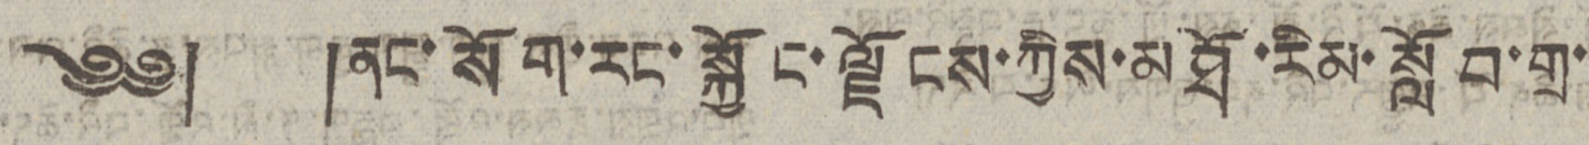༄༅། །ནང་སོག་རང་སྐྱོང་ལྗོངས་ཀྱིས་མཐོ་རིམ་སློབ་གྲ་
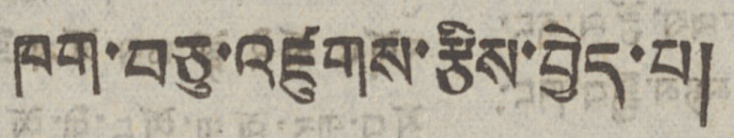ཁག་བཅུ་འཛུགས་རྩིས་བྱེད་པ།
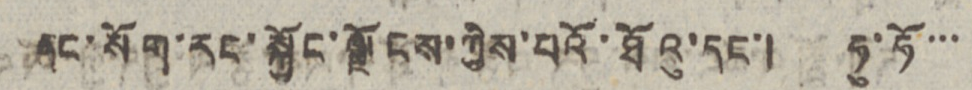ནང་སོག་རང་སྐྱོང་ཀྱིས་པའོ་ཐོའུ་དང་། ཧུ་ཧོ་་་
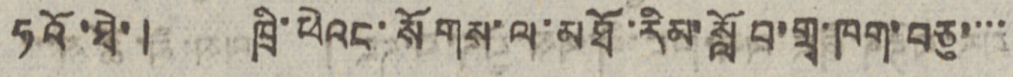ཧའོ་ཐེ་། ཁྲི་ཕེའང་སོགས་ལ་མཐོ་རིམ་སློབ་གྲྭ་ཁག་བཅུ་་་་
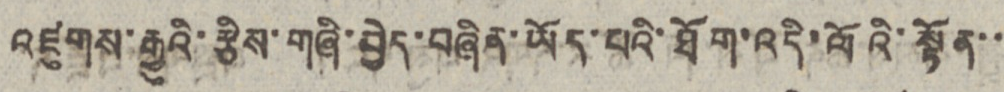འཛུགས་རྒྱུའི་རྩིས་གཞི་བྱེད་བཞིན་ཡོད་པའི་ཐོག་འདི་ལོའི་སྟོན་་
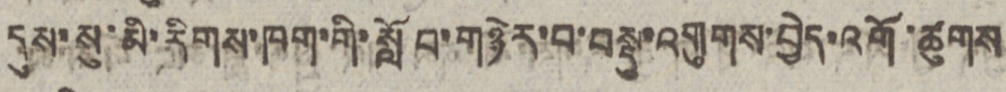དུས་སུ་མི་རིགས་ཁག་གི་སློབ་གཉེར་བ་བསྡུ་འགུགས་བྱེད་འགོ་ཚུགས
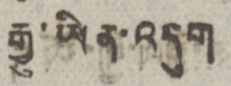རྒྱུ་ཡིན་འདུག
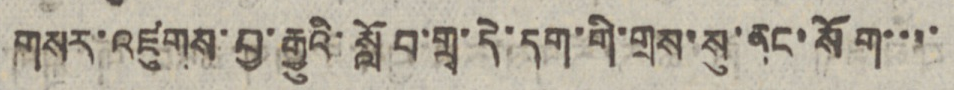གསར་འཛུགས་བྱ་རྒྱུའི་སློབ་གྲྭ་དེ་དག་གི་གྲས་སུ་ནང་སོག་་་་
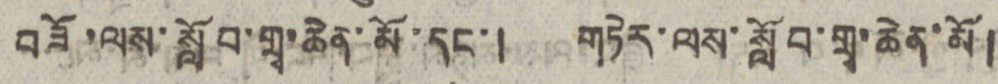བཟོ་ལས་སློབ་གྲྭ་ཆེན་མོ་དང་། གཏེར་ལས་སློབ་གྲྭ་ཆེན་མོ།
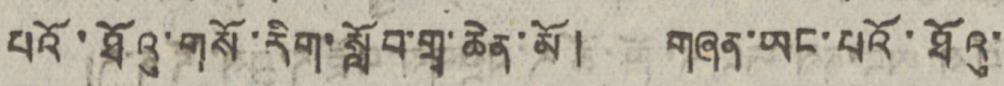པའོ་ཐོའུ་གསོ་རིག་སློབ་གྲྭ་ཆེན་མོ། གཞན་ཡང་པའོ་ཐོའུ་
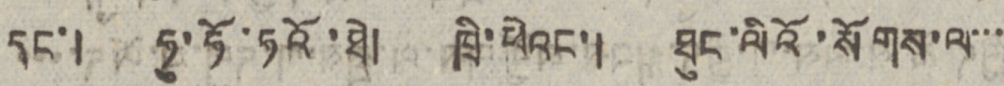དང་། ཧུ་ཧོ་ཧའོ་ཐེ། ཁྲི་ཕེའང་། ཐུང་མིའོ་སོགས་ལ་་་
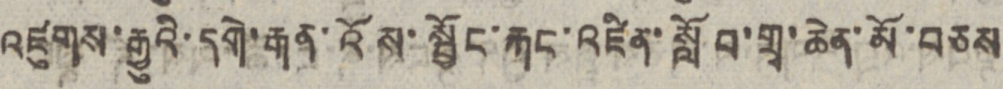འཛུགས་རྒྱུའི་དགེ་རྒན་འོས་སྦྱོང་རྐང་འཛིན་སློབ་གྲྭ་ཆེན་མོ་བཅས
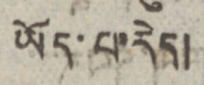ཡོད་པ་རེད།
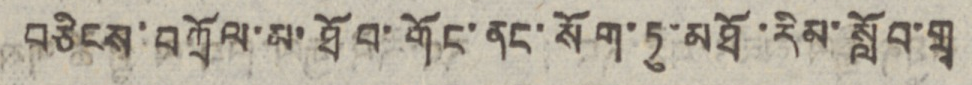བཅིངས་བཀྲོལ་མ་ཐོབ་གོང་ནང་སོག་ཏུ་མཐོ་རིམ་སློབ་གྲྭ
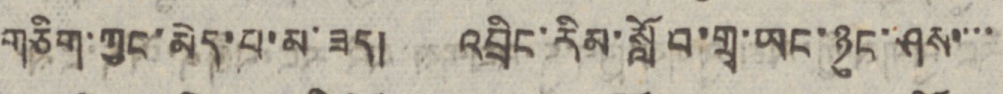གཅིག་ཀྱང་མེད་པ་མ་ཟད། འབྲིང་རིམ་སློབ་གྲྭ་ཡང་ཉུང་ཤས་་་་
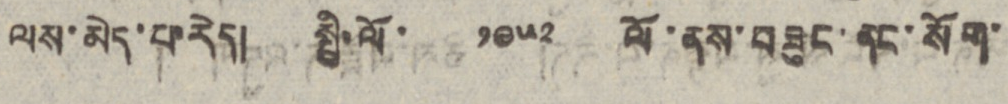ལས་མེད་པ་རེད། སྤྱི་ལོ་ ༡༩༤༢ ལོ་ནས་བཟུང་ནང་སོག་
